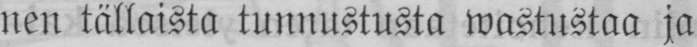nen tällaista tunnustusta wastustaa ja
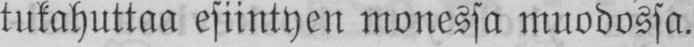tukahuttaa esiintyen monessa muodossa.
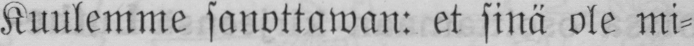Kuulemme sanottawan: et sinä ole mi-
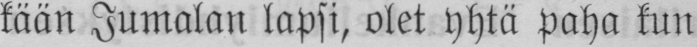kään Jumalan lapsi, olet yhtä paha kun
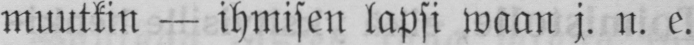muutkin — ihmisen lapsi waan j. n. e.
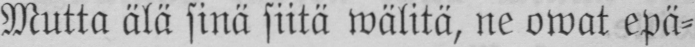Mutta älä sinä siitä wälitä, ne owat epä-
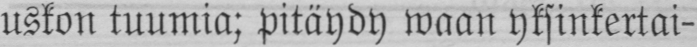uskon tuumia; pitäydy waan yksinkertai-
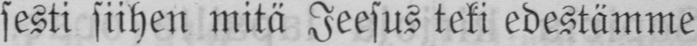sesti siihen mitä Jeesus teki edestämme
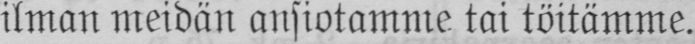ilman meidän ansiotamme tai töitämme.
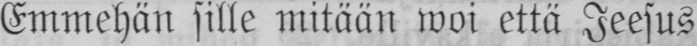Emmehän sille mitään woi että Jeesus
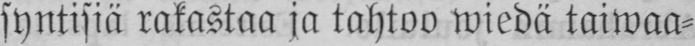syntisiä rakastaa ja tahtoo wiedä taiwaa-
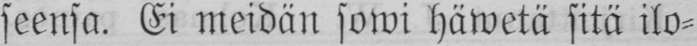seensa. Ei meidän sowi häwetä sitä ilo-
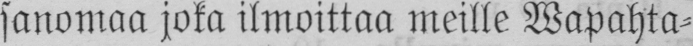sanomaa joka ilmoittaa meille Wapahta-
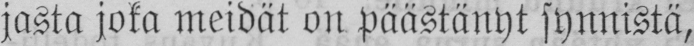jasta joka meidät on päästänyt synnistä,
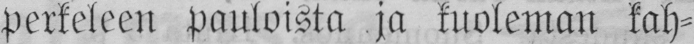perkeleen pauloista ja kuoleman kah-
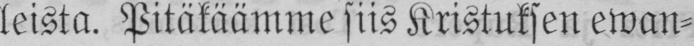leista. Pitäkäämme siis Kristuksen ewan-
